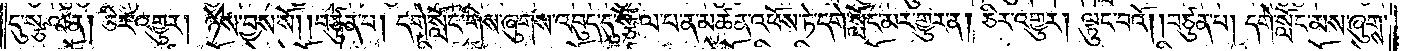དུ་སྩལ་ན། ཅིར་འགྱུར། ཉེས་བྱས་སོ། །བཙུན་པ། དགེ་སློང་གིས་ཞུགས་འབུད་དུ་སྩོལ་པ་ན་མཚན་འཕོས་ཏེ་དགེ་སློང་མར་གྱུར་ན། ཅིར་འགྱུར། ལྟུང་བའོ། །བཙུན་པ། དགེ་སློང་མས་ཞུགས་
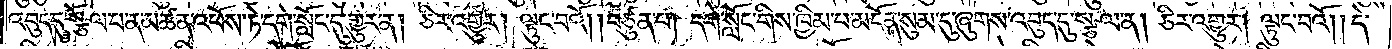འབུད་དུ་སྩོལ་པ་ན་མཚན་འཕོས་ཏེ་དགེ་སློང་དུ་གྱུར་ན། ཅིར་འགྱུར། །ལྟུང་བའོ། །བཙུན་པ། དགེ་སློང་གིས་ཁྱིམ་པ་མངོན་སུམ་དུ་ཞུགས་འབུད་དུ་སྩལ་ན། ཅིར་འགྱུར། ལྟུང་བའོ། །དེ་
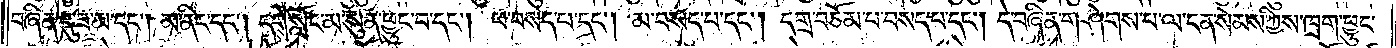བཞིན་དུ་ཟ་མ་དང༌། མ་ནིང་དང༌། དགེ་སློང་མ་སུན་ཕྱུང་བ་དང༌། ཕ་བསད་པ་དང༌། མ་བསད་པ་དང༌། དགྲ་བཅོམ་པ་བསད་པ་དང༌། དེ་བཞིན་གཤེགས་པ་ལ་ངན་སེམས་ཀྱིས་ཁྲག་ཕྱུང་
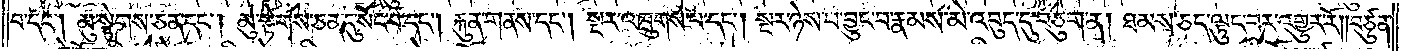བ་དང༌། མུ་སྟེགས་ཅན་དང༌། མུ་སྟེགས་ཅན་དུ་སོང་བ་དང༌། རྐུན་གནས་དང༌། སྔར་འཁྲུགས་པ་དང༌། སྔར་ཉེས་པ་བྱུང་བ་རྣམས་མེ་འབུད་དུ་བཅུག་ན། ཐམས་ཅད་ལྟུང་བར་འགྱུར་རོ། །བཙུན་
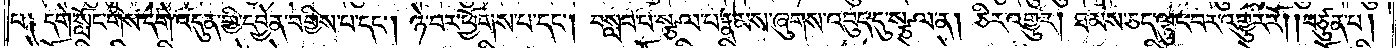པ༑ དགེ་སློང་གིས་དགེ་འདུན་གྱི་དབྱེན་བགྱིས་པ་དང༌། ཉེ་བར་ཕྱོགས་པ་དང༌། བསླབ་པ་སྩལ་པ་རྣམས་ཞུགས་འབུད་དུ་སྩལ་ན། ཅིར་འགྱུར། ཐམས་ཅད་ལྟུང་བར་འགྱུར་རོ། །བཙུན་པ།
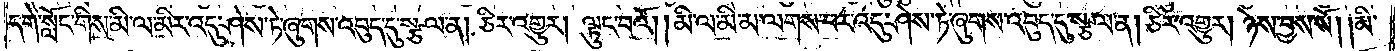དགེ་སློང་གིས་མི་ལ་མིར་འདུ་ཤེས་ཏེ་ཞུགས་འབུད་དུ་སྩལ་ན། ཅིར་འགྱུར། ལྟུང་བའོ། །མི་ལ་མི་མ་ལགས་པར་འདུ་ཤེས་ཏེ་ཞུགས་འབུད་དུ་སྩལ་ན། ཅིར་འགྱུར། ཉེས་བྱས་སོ། །མི་
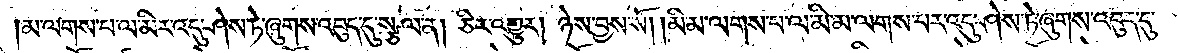མ་ལགས་པ་ལ་མིར་འདུ་ཤེས་ཏེ་ཞུགས་འབུད་དུ་སྩལ་ན། ཅིར་འགྱུར། ཉེས་བྱས་སོ། །མི་མ་ལགས་པ་ལ་མི་མ་ལགས་པར་འདུ་ཤེས་ཏེ་ཞུགས་འབུད་དུ་
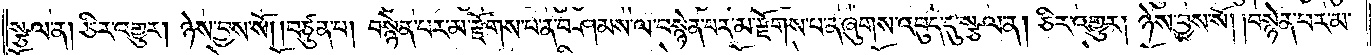སྩལ་ན། ཅིར་འགྱུར། ཉེས་བྱས་སོ། །བཙུན་པ། བསྙེན་པར་མ་རྫོགས་པ་ན་བཤམས་ལ་བསྙེན་པར་མ་རྫོགས་པ་ན་ཞུགས་འབུད་དུ་སྩལ་ན། ཅིར་འགྱུར། ཉེས་བྱས་སོ། །བསྙེན་པར་མ་
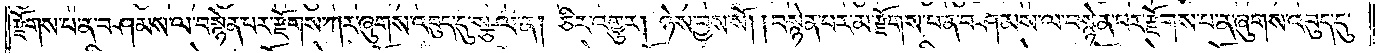རྫོགས་པ་ན་བཤམས་ལ་བསྙེན་པར་རྫོགས་ཀར་ཞུགས་འབུད་དུ་སྩལ་ན། ཅིར་འགྱུར། ཉེས་བྱས་སོ། །བསྙེན་པར་མ་རྫོགས་པ་ན་བཤམས་ལ་བསྙེན་པར་རྫོགས་པ་ན་ཞུགས་འབུད་དུ་
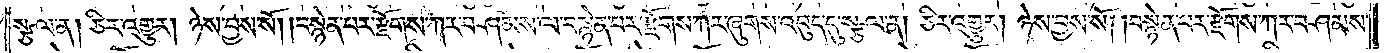སྩལ་ན། ཅིར་འགྱུར། ཉེས་བྱས་སོ། །བསྙེན་པར་རྫོགས་ཀར་བཤམས་ལ་བསྙེན་བར་རྫོགས་ཀར་ཞུགས་འབུད་དུ་སྩལ་ན། ཅིར་འགྱུར། ཉེས་བྱས་སོ། །བསྙེན་པར་རྫོགས་ཀར་བཤམས་
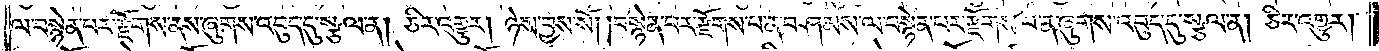ལ་བསྙེན་པར་རྫོགས་ནས་ཞུགས་འབུད་དུ་སྩལ་ན། ཅིར་འགྱུར། ཉེས་བྱས་སོ། །བསྙེན་པར་རྫོགས་པ་ན་བཤམས་ལ་བསྙེན་པར་རྫོགས་པ་ན་ཞུགས་འབུད་དུ་སྩལ་ན། ཅིར་འགྱུར།
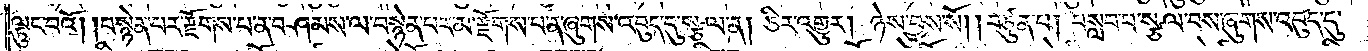ལྟུང་བའོ། །བསྙེན་པར་རྫོགས་པ་ན་བཤམས་ལ་བསྙེན་པར་མ་རྫོགས་པ་ན་ཞུགས་འབུད་དུ་སྩལ་ན། ཅིར་འགྱུར། ཉེས་བྱས་སོ། །བཙུན་པ། བསླབ་བ་སྩལ་བས་ཞུགས་འབུད་དུ་
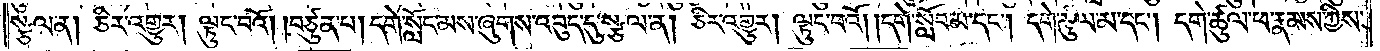སྩལ་ན། ཅིར་འགྱུར། ལྟུང་བའོ། །བཙུན་པ། དགེ་སློང་མས་ཞུགས་འབུད་དུ་སྩལ་ན། ཅིར་འགྱུར། ལྟུང་བའོ། །དགེ་སློབ་མ་དང༌། དགེ་ཚུལ་མ་དང༌། དགེ་ཚུལ་ཕ་རྣམས་ཀྱིས་
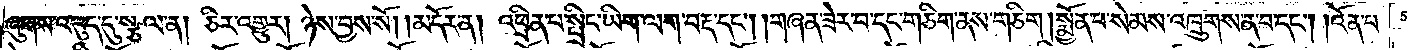ཞུགས་འབུད་དུ་སྩལ་ན། ཅིར་འགྱུར། ཉེས་བྱས་སོ། །མདོར་ན། འཕྲིན་པ་སྤྲིང་ཡིག་ལག་བརྡ་དང༌། །གཞན་ཟེར་བ་དང་གཅིག་ནས་གཅིག །སྨྱོན་པ་སེམས་འཁྲུགས་ན་བ་དང༌། །འོན་པ་
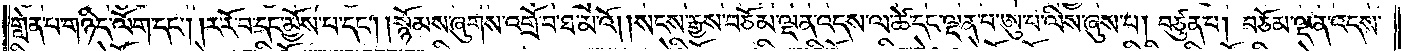གླེན་པ་གཉིད་ལོག་དང༌། །ར་རོ་བ་དང་མྱོས་པ་དང༌། །སྙོམས་ཞུགས་འགྲོ་བ་ཐ་མ་འོ། །སངས་རྒྱས་བཅོམ་ལྡན་འདས་ལ་ཚེ་དང་ལྡན་པ་ཨུ་པ་ལིས་ཞུས་པ། བཙུན་པ། བཅོམ་ལྡན་འདས་
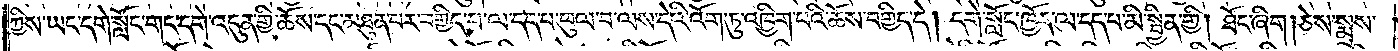ཀྱིས་ཡང་དགེ་སློང་གང་དགེ་འདུན་གྱི་ཆོས་དང་མཐུན་པར་བགྱིད་པ་ལ་དད་པ་ཕུལ་བ་ལས་དེའི་འོག་ཏུ་འཁྱིག་པའི་ཆོས་བགྱིད་དེ། དགེ་སློང་ཁྱོད་ལ་དད་པ་མི་སྦྱིན་གྱི། ཐོང་ཞིག །ཅེས་སྨྲས་
